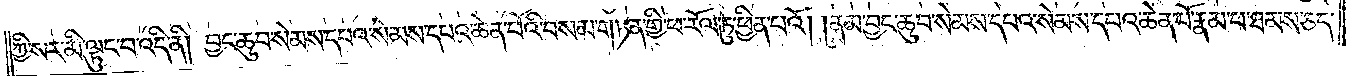ཀྱི་སར་མི་ལྟུང་བ་འདི་ནི། བྱང་ཆུབ་སེམས་དཔའ་སེམས་དཔའ་ཆེན་པོའི་བསམ་གཏན་གྱི་ཕ་རོལ་ཏུ་ཕྱིན་པའོ། །ནམ་བྱང་ཆུབ་སེམས་དཔའ་སེམས་དཔའ་ཆེན་པོ་རྣམ་པ་ཐམས་ཅད་
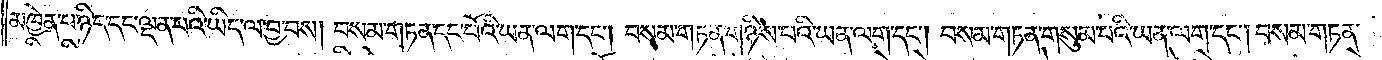མཁྱེན་པ་ཉིད་དང་ལྡན་པའི་ཡིད་ལ་བྱ་བས། བསམ་གཏན་དང་པོའི་ཡན་ལག་དང༌། བསམ་གཏན་གཉིས་པའི་ཡན་ལག་དང༌། བསམ་གཏན་གསུམ་པའི་ཡན་ལག་དང༌། བསམ་གཏན་
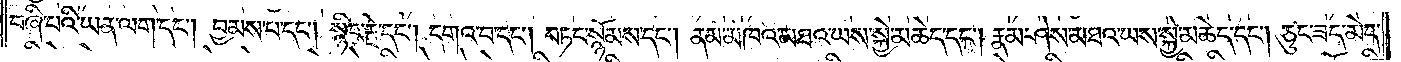བཞི་པའི་ཡན་ལག་དང༌། བྱམས་པ་དང༌། སྙིང་རྗེ་དང༌། དགའ་བ་དང༌། བཏང་སྙོམས་དང༌། ནམ་མཁའ་མཐའ་ཡས་སྐྱེ་མཆེད་དང༌། རྣམ་ཤེས་མཐའ་ཡས་སྐྱེ་མཆེད་དང༌། ཅུང་ཟད་མེད་
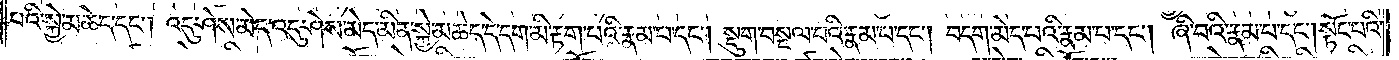པའི་སྐྱེ་མཆེད་དང༌། འདུ་ཤེས་མེད་འདུ་ཤེས་མེད་མིན་སྐྱེ་མཆེད་དེ་དག་མི་རྟག་པའི་རྣམ་པ་དང༌། སྡུག་བསྔལ་བའི་རྣམ་པ་དང༌། བདག་མེད་པའི་རྣམ་པ་དང༌། ཞི་བའི་རྣམ་པ་དང༌། སྟོང་པའི་
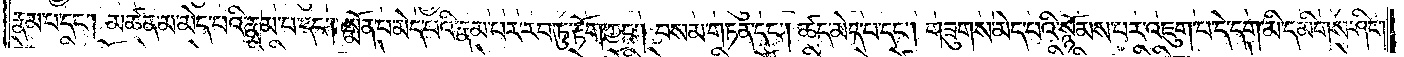རྣམ་པ་དང༌། མཚན་མ་མེད་པའི་རྣམ་པ་དང༌། སྨོན་པ་མེད་པའི་རྣམ་པར་རབ་ཏུ་རྟོག་ཀྱང༌། བསམ་གཏན་དང༌། ཚད་མེད་པ་དང༌། གཟུགས་མེད་པའི་སྙོམས་པར་འཇུག་པ་དེ་དག་མི་དམིགས་ཤིང༌།
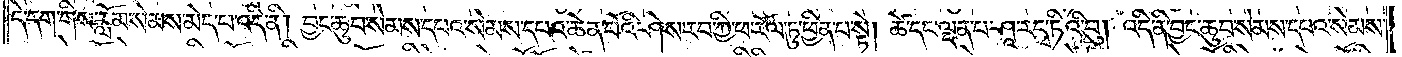དེ་དག་གིས་རློམ་སེམས་མེད་པ་འདི་ནི། བྱང་ཆུབ་སེམས་དཔའ་སེམས་དཔའ་ཆེན་པོའི་ཤེས་རབ་ཀྱི་ཕ་རོལ་ཏུ་ཕྱིན་པ་སྟེ། ཚེ་དང་ལྡན་པ་ཤཱ་རདྭ་ཏིའི་བུ། འདི་ནི་བྱང་ཆུབ་སེམས་དཔའ་སེམས་
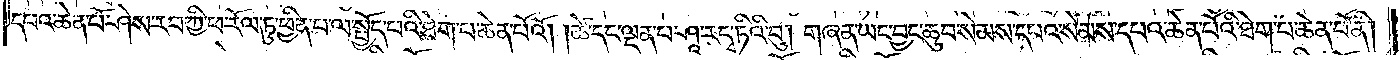དཔའ་ཆེན་པོ་ཤེས་རབ་ཀྱི་ཕ་རོལ་ཏུ་ཕྱིན་པ་ལ་སྤྱོད་པའི་ཐེག་པ་ཆེན་པོའོ། །ཚེ་དང་ལྡན་པ་ཤཱ་རདྭ་ཏིའི་བུ། གཞན་ཡང་བྱང་ཆུབ་སེམས་དཔའ་སེམས་དཔའ་ཆེན་པོའི་ཐེག་པ་ཆེན་པོ་ནི།
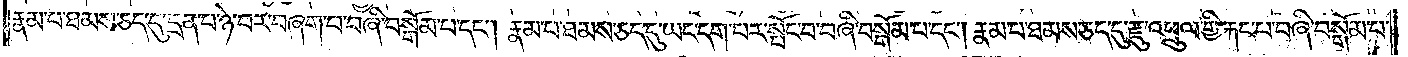རྣམ་པ་ཐམས་ཅད་དུ་དྲན་པ་ཉེ་བར་བཞག་པ་བཞི་བསྒོམ་པ་དང༌། རྣམ་པ་ཐམས་ཅད་དུ་ཡང་དག་པར་སྤོང་བ་བཞི་བསྒོམ་པ་དང༌། རྣམ་པ་ཐམས་ཅད་དུ་རྫུ་འཕྲུལ་གྱི་རྐང་པ་བཞི་བསྒོམ་པ་
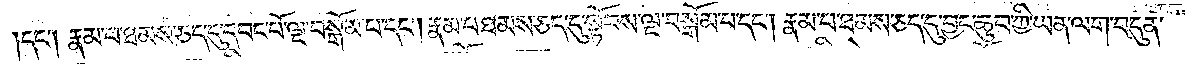དང༌། རྣམ་པ་ཐམས་ཅད་དུ་དབང་པོ་ལྔ་བསྒོམ་པ་དང༌། རྣམ་པ་ཐམས་ཅད་དུ་སྟོབས་ལྔ་བསྒོམ་པ་དང༌། རྣམ་པ་ཐམས་ཅད་དུ་བྱང་ཆུབ་ཀྱི་ཡན་ལག་བདུན་
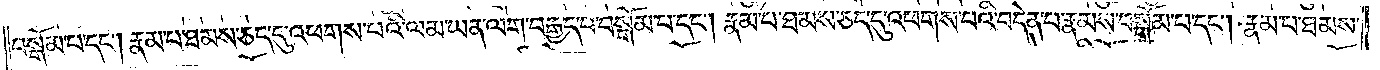བསྒོམ་པ་དང༌། རྣམ་པ་ཐམས་ཅད་དུ་འཕགས་པའི་ལམ་ཡན་ལག་བརྒྱད་པ་བསྒོམ་པ་དང༌། རྣམ་པ་ཐམས་ཅད་དུ་འཕགས་པའི་བདེན་པ་རྣམས་བསྒོམ་པ་དང༌། རྣམ་པ་ཐམས་
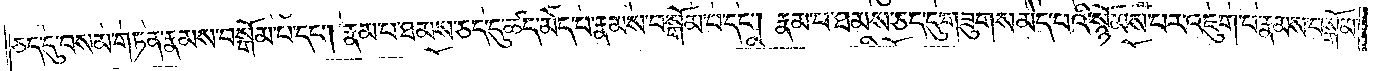ཅད་དུ་བསམ་གཏན་རྣམས་བསྒོམ་པ་དང༌། རྣམ་པ་ཐམས་ཅད་དུ་ཚད་མེད་པ་རྣམས་བསྒོམ་པ་དང༌། རྣམ་པ་ཐམས་ཅད་དུ་གཟུགས་མེད་པའི་སྙོམས་པར་འཇུག་པ་རྣམས་བསྒོམ་
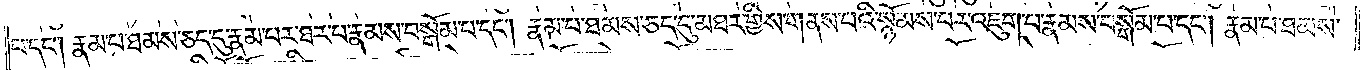པ་དང༌། རྣམ་པ་ཐམས་ཅད་དུ་རྣམ་པར་ཐར་པ་རྣམས་བསྒོམ་པ་དང༌། རྣམ་པ་ཐམས་ཅད་དུ་མཐར་གྱིས་གནས་པའི་སྙོམས་པར་འཇུག་པ་རྣམས་བསྒོམ་པ་དང༌། རྣམ་པ་ཐམས་
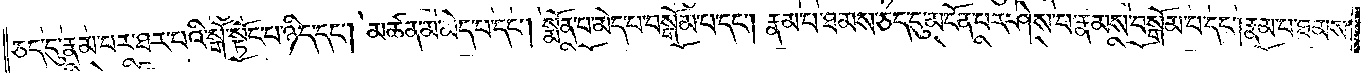ཅད་དུ་རྣམ་པར་ཐར་པའི་སྒོ་སྟོང་པ་ཉིད་དང༌། མཚན་མ་མེད་པ་དང༌། སྨོན་པ་མེད་པ་བསྒོམ་པ་དང༌། རྣམ་པ་ཐམས་ཅད་དུ་མངོན་པར་ཤེས་པ་རྣམས་བསྒོམ་པ་དང༌། རྣམ་པ་ཐམས་
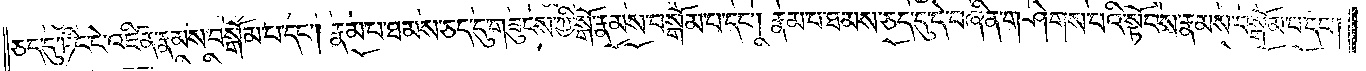ཅད་དུ་ཏིང་ངེ་འཛིན་རྣམས་བསྒོམ་པ་དང༌། རྣམ་པ་ཐམས་ཅད་དུ་གཟུངས་ཀྱི་སྒོ་རྣམས་བསྒོམ་པ་དང༌། རྣམ་པ་ཐམས་ཅད་དུ་དེ་བཞིན་གཤེགས་པའི་སྟོབས་རྣམས་བསྒོམ་པ་དང༌།
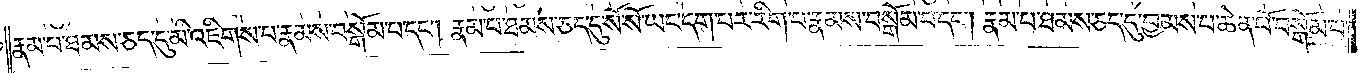རྣམ་པ་ཐམས་ཅད་དུ་མི་འཇིགས་པ་རྣམས་བསྒོམ་པ་དང༌། རྣམ་པ་ཐམས་ཅད་དུ་སོ་སོ་ཡང་དག་པར་རིག་པ་རྣམས་བསྒོམ་པ་དང༌། རྣམ་པ་ཐམས་ཅད་དུ་བྱམས་པ་ཆེན་པོ་བསྒོམ་པ་
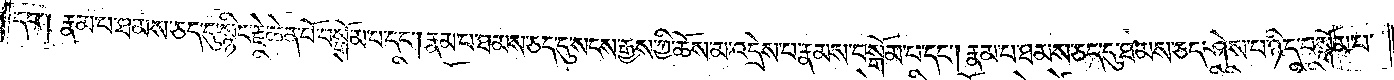དང༌། རྣམ་པ་ཐམས་ཅད་དུ་སྙིང་རྗེ་ཆེན་པོ་བསྒོམ་པ་དང༌། རྣམ་པ་ཐམས་ཅད་དུ་སངས་རྒྱས་ཀྱི་ཆོས་མ་འདྲེས་པ་རྣམས་བསྒོམ་པ་དང༌། རྣམ་པ་ཐམས་ཅད་དུ་ཐམས་ཅད་ཤེས་པ་ཉིད་བསྒོམ་པ་
